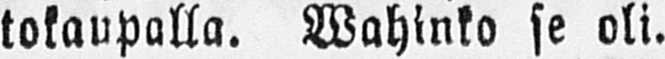tokaupalla. Wahinko se oli.
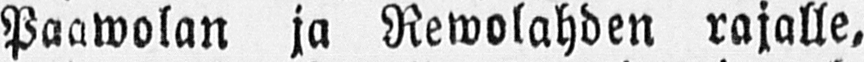Paawolan ja Rewolahden rajalle,
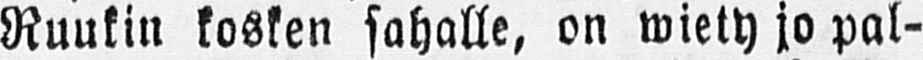Ruukin kosken sahalle, on wiety jo pal-
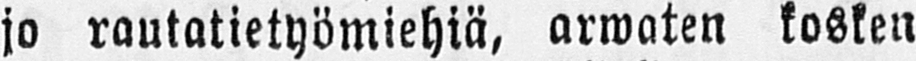jo rautatietyömiehiä, arwaten kosken
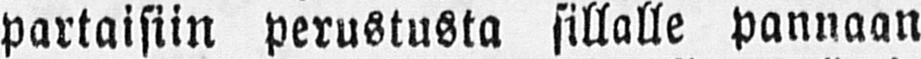partaisiin perustusta sillalle pannaan
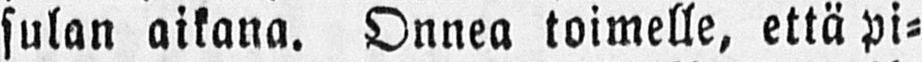sulan aikana. Onnea toimelle, että pi-
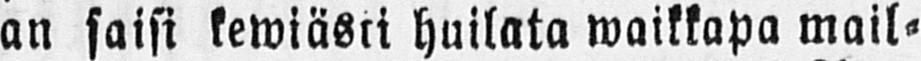an saisi kewiästi huilata waikkapa mail-
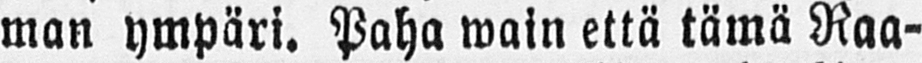man ympäri. Paha wain että tämä Raa-
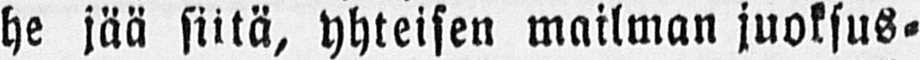he jää siitä, yhteisen mailman juoksus-
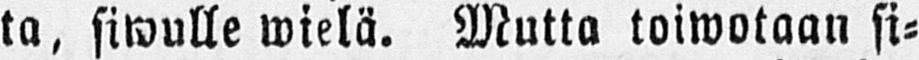ta, siwulle wielä. Mutta toiwotaan si-
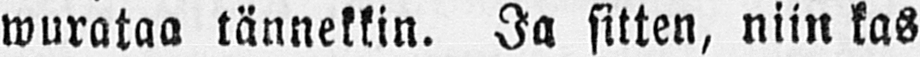wurataa tännekkin. Ja sitten, niin kas
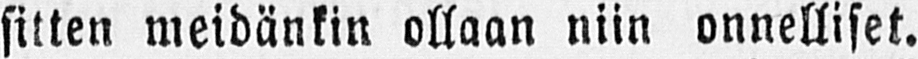sitten meidänkin ollaan niin onnelliset.
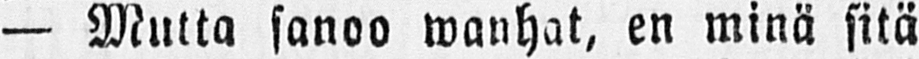— Mutta sanoo wanhat, en minä sitä
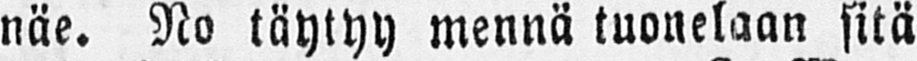näe. No täytyy mennä tuonelaan sitä
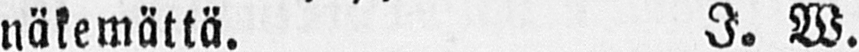näkemättä. I. W.
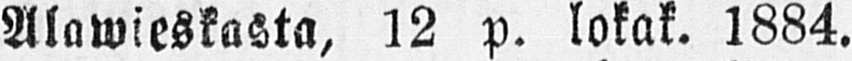Alawieskasta, 12 p. lokak. 1884.
